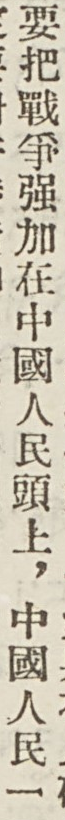要把戰爭強加在中國人民頭上，中國人民一
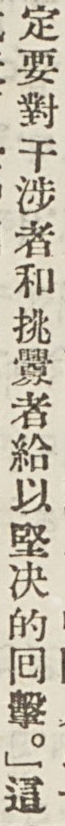定要對干涉者和挑釁者給以堅決的囘擊。」這
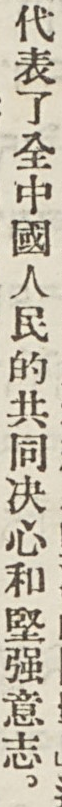代表了全中國人民的共同決心和堅強意志。
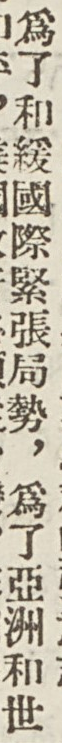爲了和緩國際緊張局勢，爲了亞洲和世
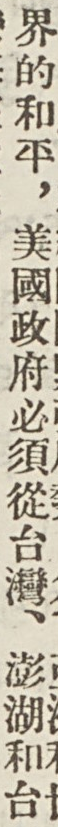界的和平，美國政府必須從台灣、澎湖和台
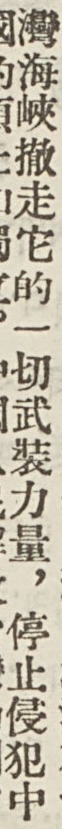灣海峽撤走它的一切武裝力量，停止侵犯中
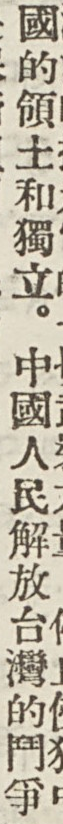國的領土和獨立。中國人民解放台灣的鬥爭
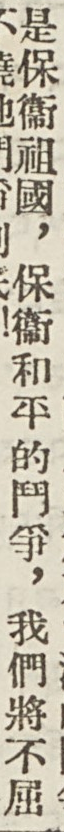是保衛祖國，保衛和平的鬥爭，我們將不屈
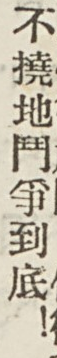不撓地鬥爭到底！
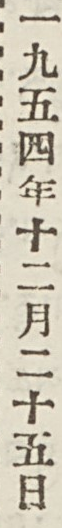一九五四年十二月二十五日
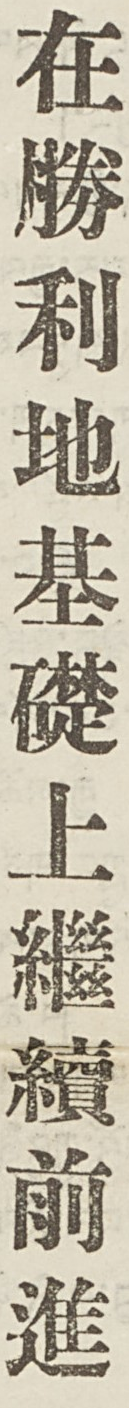在勝利地基礎上繼續前進
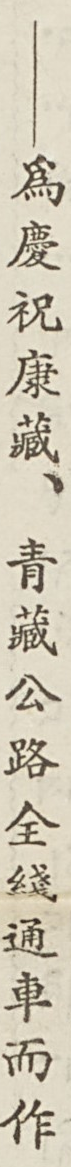——爲慶祝康藏、青藏公路全綫通車而作
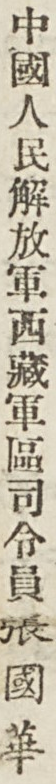中國人民解放軍西藏軍區司令員張國華
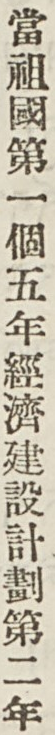當祖國第一個五年經濟建設計劃第二年
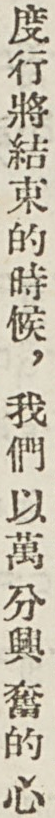度行將結束的時候，我們以萬分興奮的心
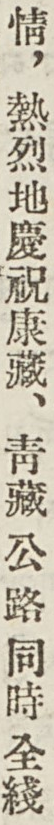情，熱烈地慶祝康藏、靑藏公路同時全綫
